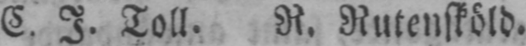C. I. Toll. R. Rutensköld.
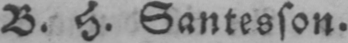B. H. Santesson.
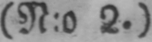(N:o 2.)
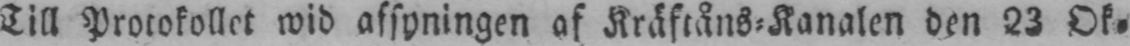Till Protokollet wid afsyningen af Kräftåns-Kanalen den 23 Ok-
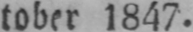tober 1847.
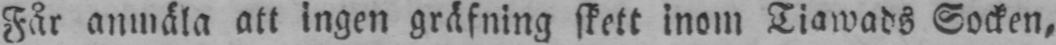Får anmäla att ingen gräfning skett inom Tiawads Socken,
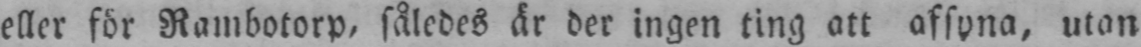eller för Rambotorp, således är der ingen ting att afsyna, utan
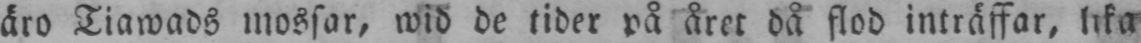äro Tiawads mossar, wid de tider på året då flod inträffar, lika
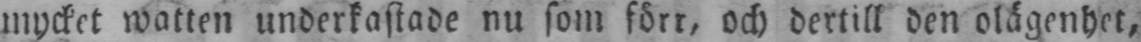mycket watten underkastade nu som förr, och dertill den olägenhet,
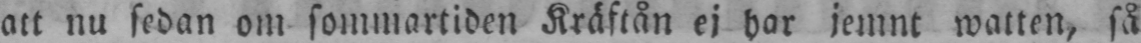att nu sedan om sommartiden Kräftån ej har jemnt watten, så
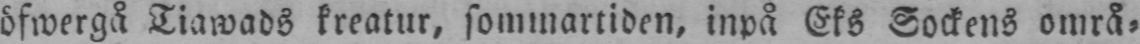öfwergå Tiawads kreatur, sommartiden, inpå Eks Sockens områ-
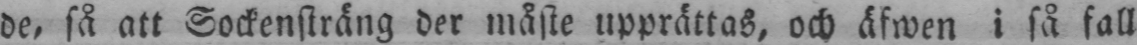de, så att Sockensträng der måste upprättas, och äfwen i så fall
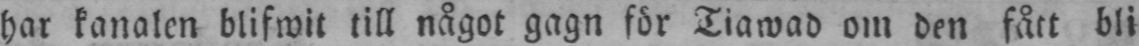har kanalen blifwit till något gagn för Tiawad om den fått bli
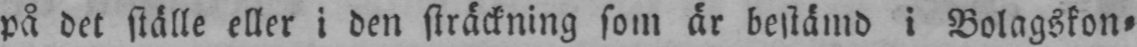på det ställe eller i den sträckning som är bestämd i Bolagskon-
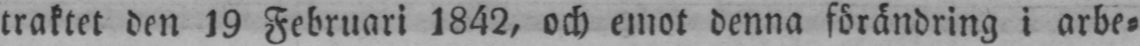traktet den 19 Februari 1842, och emot denna förändring i arbe-
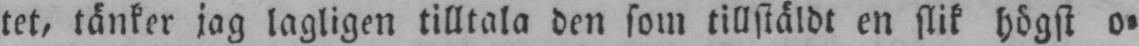tet, tänker jag lagligen tilltala den som tillstäldt en slik högst o-
